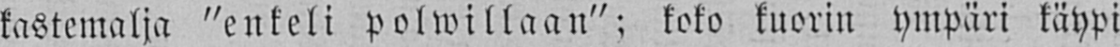kastemalja "enkeli polwillaan"; koko kuorin ympäri käypi
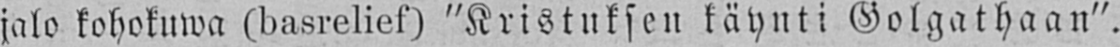jalo kohottuwa (basrelief) "Kristuksen käynti Golgathaan".
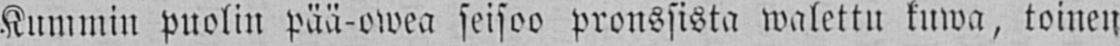Kummin puolin pää-owea seisoo pronssista walettu kuwa, toinen
